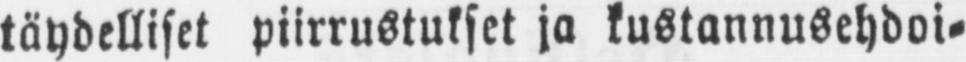täydelliset piirrustukset ja kustannusehdoi-
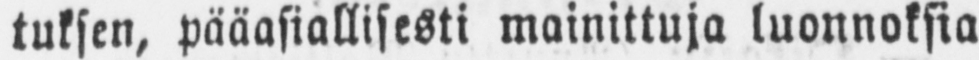tuksen, pääasiallisesti mainittuja luonnoksia
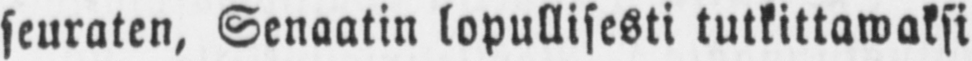seuraten, Senaatin lopullisesti tutkittawaksi
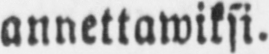annettawiksi.
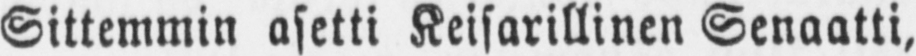Sittemmin asetti Keisarillinen Senaatti,
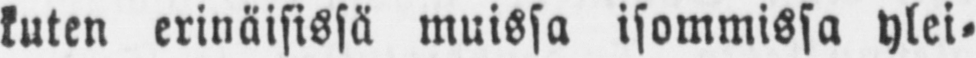kuten erinäisissä muissa isommissa ylei-
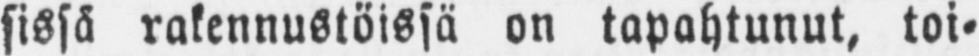sissä rakennustöissä on tapahtunut, toi-
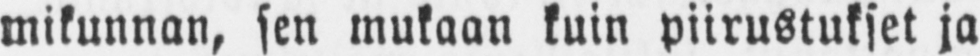mikunnan, sen mukaan kuin piirustukset ja
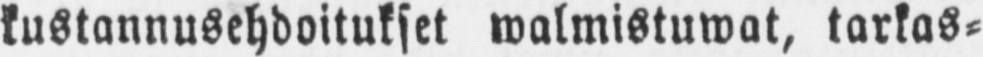kustannusehdoitukset walmistuwat, tarkas-
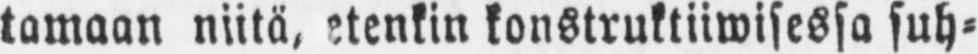tamaan niitä, etenkin konstruktiiwisessa suh-
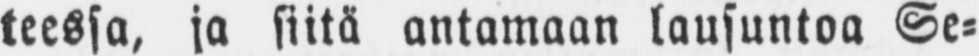teessa, ja siitä antamaan lausuntoa Se-
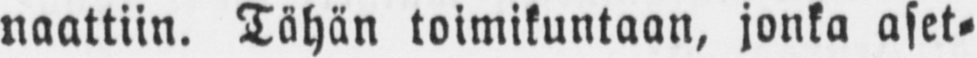naattiin. Tähän toimikuntaan, jonka aset-
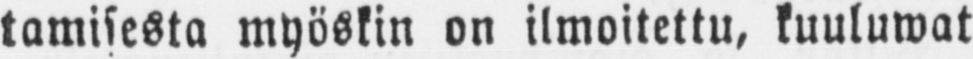tamisesta myöskin on ilmoitettu, kuuluwat
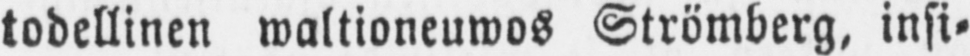todellinen waltioneuwos Strömberg, insi-
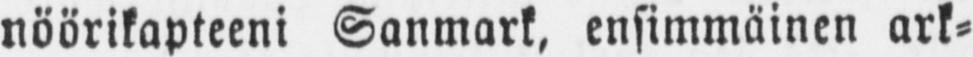nöörikapteeni Sanmark, ensimmäinen ark-
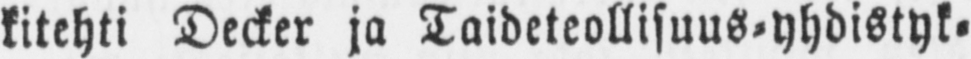kitehti Decker ja Taideteollisuus-yhdistyk-
